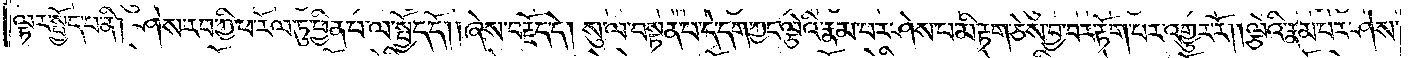ལྟར་སྤྱོད་པ་ནི། ཤེས་རབ་ཀྱི་ཕ་རོལ་ཏུ་ཕྱིན་པ་ལ་སྤྱོད་དོ། །ཞེས་བརྗོད་དེ། སུ་ལ་བསྟན་པ་དེ་དག་ཀྱང་ལྕེའི་རྣམ་པར་ཤེས་པ་མི་རྟག་ཅེས་བྱ་བར་རྟོག་པར་འགྱུར་རོ། །ལྕེའི་རྣམ་པར་ཤེས་
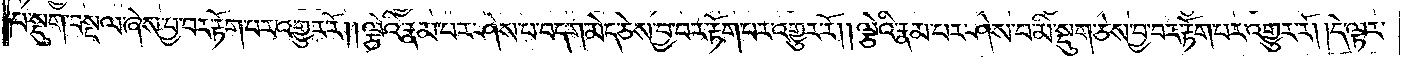པ་སྡུག་བསྔལ་ཞེས་བྱ་བར་རྟོག་པར་འགྱུར་རོ། །ལྕེའི་རྣམ་པར་ཤེས་པ་བདག་མེད་ཅེས་བྱ་བར་རྟོག་པར་འགྱུར་རོ། །ལྕེའི་རྣམ་པར་ཤེས་པ་མི་སྡུག་ཅེས་བྱ་བར་རྟོག་པར་འགྱུར་རོ། །དེ་ལྟར་
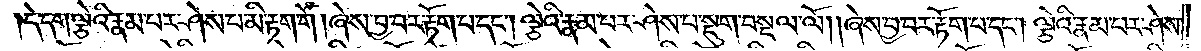དེ་དག་ལྕེའི་རྣམ་པར་ཤེས་པ་མི་རྟག་གོ། ཞེས་བྱ་བར་རྟོག་པ་དང༌། ལྕེའི་རྣམ་པར་ཤེས་པ་སྡུག་བསྔལ་ལོ། །ཞེས་བྱ་བར་རྟོག་པ་དང༌། ལྕེའི་རྣམ་པར་ཤེས་
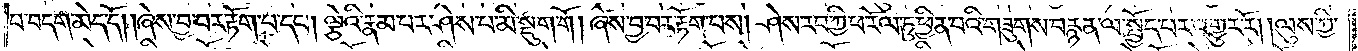པ་བདག་མེད་དོ། །ཞེས་བྱ་བར་རྟོག་པ་དང༌། ལྕེའི་རྣམ་པར་ཤེས་པ་མི་སྡུག་གོ། ཞེས་བྱ་བར་རྟོག་པས། ཤེས་རབ་ཀྱི་ཕ་རོལ་ཏུ་ཕྱིན་པའི་གཟུགས་བརྙན་ལ་སྤྱོད་པར་འགྱུར་རོ། །ལུས་ཀྱི་
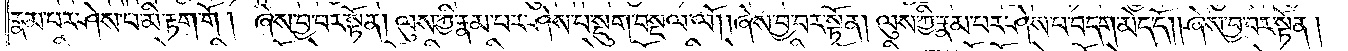རྣམ་པར་ཤེས་པ་མི་རྟག་གོ། ཞེས་བྱ་བར་སྟོན། ལུས་ཀྱི་རྣམ་པར་ཤེས་པ་སྡུག་བསྔལ་ལོ། །ཞེས་བྱ་བར་སྟོན། ལུས་ཀྱི་རྣམ་པར་ཤེས་པ་བདག་མེད་དོ། །ཞེས་བྱ་བར་སྟོན།
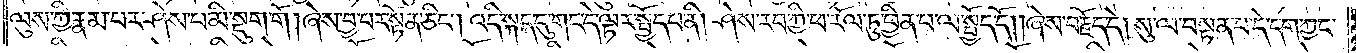ལུས་ཀྱི་རྣམ་པར་ཤེས་པ་མི་སྡུག་གོ། ཞེས་བྱ་བར་སྟོན་ཅིང༌། འདི་སྐད་དུ་གང་དེ་ལྟར་སྤྱོད་པ་ནི། ཤེས་རབ་ཀྱི་ཕ་རོལ་ཏུ་ཕྱིན་པ་ལ་སྤྱོད་དོ། །ཞེས་བརྗོད་དེ། སུ་ལ་བསྟན་པ་དེ་དག་ཀྱང་
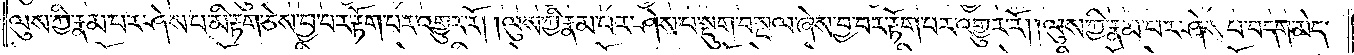ལུས་ཀྱི་རྣམ་པར་ཤེས་པ་མི་རྟག་ཅེས་བྱ་བར་རྟོག་པར་འགྱུར་རོ། །ལུས་ཀྱི་རྣམ་པར་ཤེས་པ་སྡུག་བསྔལ་ཞེས་བྱ་བར་རྟོག་པར་འགྱུར་རོ། །ལུས་ཀྱི་རྣམ་པར་ཤེས་པ་བདག་མེད་
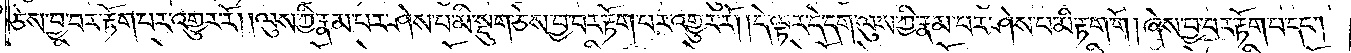ཅེས་བྱ་བར་རྟོག་པར་འགྱུར་རོ། །ལུས་ཀྱི་རྣམ་པར་ཤེས་པ་མི་སྡུག་ཅེས་བྱ་བར་རྟོག་པར་འགྱུར་རོ། །དེ་ལྟར་དེ་དག་ལུས་ཀྱི་རྣམ་པར་ཤེས་པ་མི་རྟག་གོ། ཞེས་བྱ་བར་རྟོག་པ་དང༌།
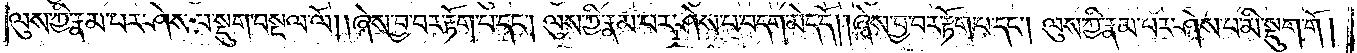ལུས་ཀྱི་རྣམ་པར་ཤེས་པ་སྡུག་བསྔལ་ལོ། །ཞེས་བྱ་བར་རྟོག་པ་དང༌། ལུས་ཀྱི་རྣམ་པར་ཤེས་པ་བདག་མེད་དོ། །ཞེས་བྱ་བར་རྟོག་པ་དང༌། ལུས་ཀྱི་རྣམ་པར་ཤེས་པ་མི་སྡུག་གོ།
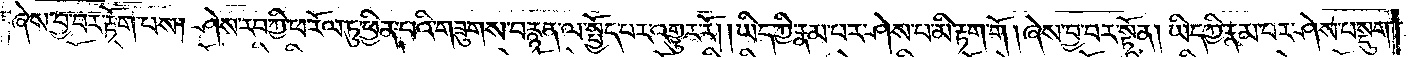ཞེས་བྱ་བར་རྟོག་པས། ཤེས་རབ་ཀྱི་ཕ་རོལ་ཏུ་ཕྱིན་པའི་གཟུགས་བརྙན་ལ་སྤྱོད་པར་འགྱུར་རོ། །ཡིད་ཀྱི་རྣམ་པར་ཤེས་པ་མི་རྟག་གོ། ཞེས་བྱ་བར་སྟོན། ཡིད་ཀྱི་རྣམ་པར་ཤེས་པ་སྡུག་
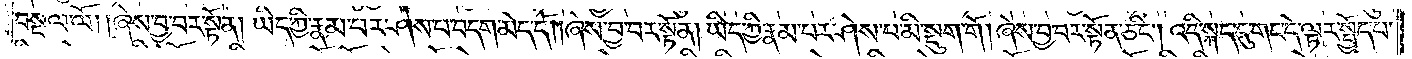བསྔལ་ལོ། །ཞེས་བྱ་བར་སྟོན། ཡིད་ཀྱི་རྣམ་པར་ཤེས་པ་བདག་མེད་དོ། །ཞེས་བྱ་བར་སྟོན། ཡིད་ཀྱི་རྣམ་པར་ཤེས་པ་མི་སྡུག་གོ། ཞེས་བྱ་བར་སྟོན་ཅིང༌། འདི་སྐད་དུ་གང་དེ་ལྟར་སྤྱོད་པ་
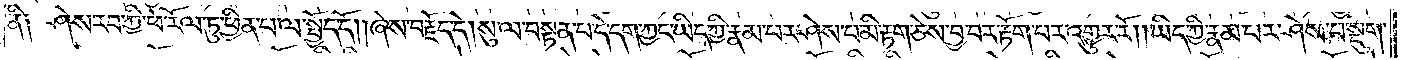ནི༑ ཤེས་རབ་ཀྱི་ཕ་རོལ་དུ་ཕྱིན་པ་ལ་སྤྱོད་དོ། །ཞེས་བརྗོད་དེ། སུ་ལ་བསྟན་པ་དེ་དག་ཀྱང་ཡིད་ཀྱི་རྣམ་པར་ཤེས་པ་མི་རྟག་ཅེས་བྱ་བར་རྟོག་པར་འགྱུར་རོ། །ཡིད་ཀྱི་རྣམ་པར་ཤེས་པ་སྡུག་
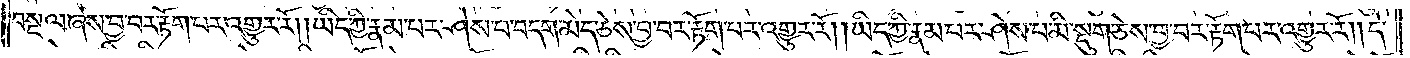བསྔལ་ཞེས་བྱ་བར་རྟོག་པར་འགྱུར་རོ། །ཡིད་ཀྱི་རྣམ་པར་ཤེས་པ་བདག་མེད་ཅེས་བྱ་བར་རྟོག་པར་འགྱུར་རོ། །ཡིད་ཀྱི་རྣམ་པར་ཤེས་པ་མི་སྡུག་ཅེས་བྱ་བར་རྟོག་པར་འགྱུར་རོ། །དེ་
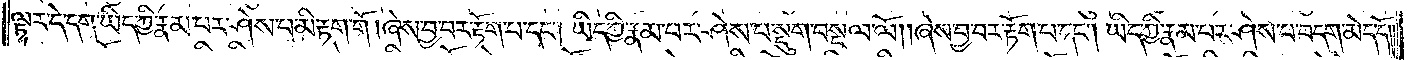ལྟར་དེ་དག་ཡིད་ཀྱི་རྣམ་པར་ཤེས་པ་མི་རྟག་གོ། ཞེས་བྱ་བར་རྟོག་པ་དང༌། ཡིད་ཀྱི་རྣམ་པར་ཤེས་པ་སྡུག་བསྔལ་ལོ། །ཞེས་བྱ་བར་རྟོག་པ་དང༌། ཡིད་ཀྱི་རྣམ་པར་ཤེས་པ་བདག་མེད་དོ༎
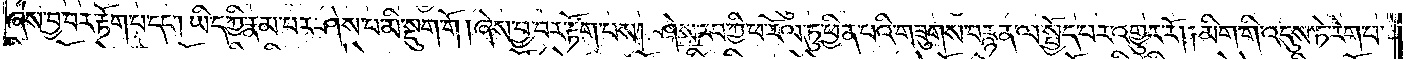ཞེས་བྱ་བར་རྟོག་པ་དང༌། ཡིད་ཀྱི་རྣམ་པར་ཤེས་པ་མི་སྡུག་གོ། ཞེས་བྱ་བར་རྟོག་པས། ཤེས་རབ་ཀྱི་ཕ་རོལ་ཏུ་ཕྱིན་པའི་གཟུགས་བརྙན་ལ་སྤྱོད་པར་འགྱུར་རོ། །མིག་གི་འདུས་ཏེ་རེག་པ་
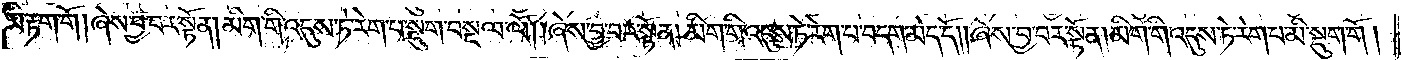མི་རྟག་གོ། ཞེས་བྱ་བར་སྟོན། མིག་གི་འདུས་ཏེ་རེག་པ་སྡུག་བསྔལ་ལོ། །ཞེས་བྱ་བར་སྟོན། མིག་གི་འདུས་ཏེ་རེག་པ་བདག་མེད་དོ། །ཞེས་བྱ་བར་སྟོན། མིག་གི་འདུས་ཏེ་རེག་པ་མི་སྡུག་གོ།
